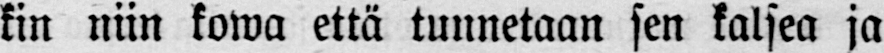kin niin kowa että tunnetaan sen kalsea ja
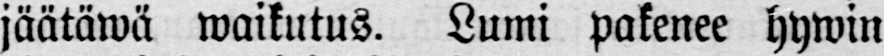jäätäwä waikutus. Lumi pakenee hywin
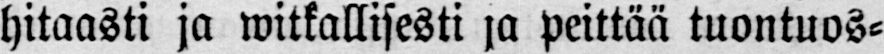hitaasti ja witkallisesti ja peittää tuontuos-
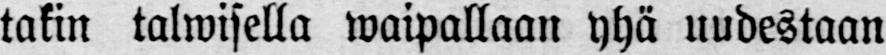takin talwisella waipallaan yhä uudestaan
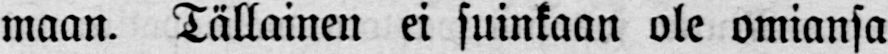maan. Tällainen ei suinkaan ole omiansa
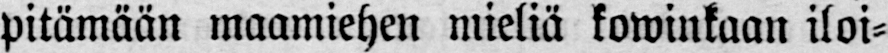pitämään maamiehen mieliä kowinkaan iloi-
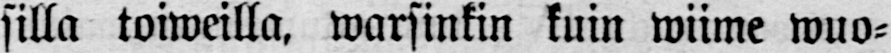silla toiweilla, warsinkin kuin wiime wuo-
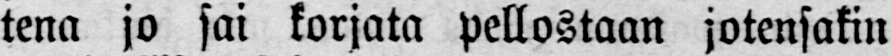tena jo sai korjata pellostaan jotensakin
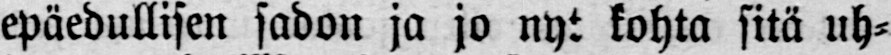epäedullisen sadon ja jo nyt kohta sitä uh-
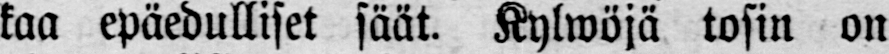kaa epäedulliset säät. Kylwöjä tosin on
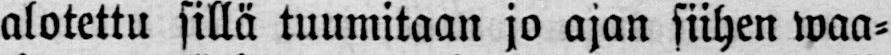alotettu sillä tuumitaan jo ajan siihen waa-
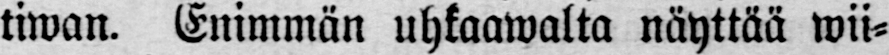tiwan. Enimmän uhkaawalta näyttää wii-
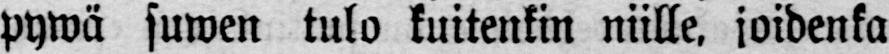pywä suwen tulo kuitenkin niille, joidenka
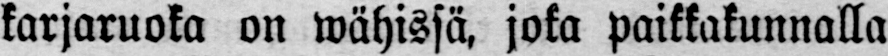karjaruoka on wähissä, joka paikkakunnalla
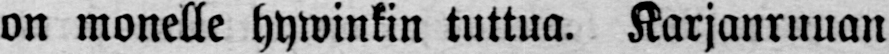on monelle hywinkin tuttua. Karjanruuan
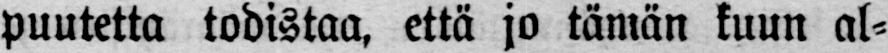puutetta todistaa, että jo tämän kuun al-
